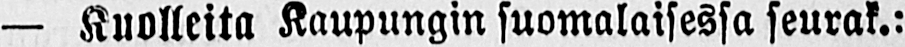— Kuolleita Kaupungin suomalaisessa seurak.:
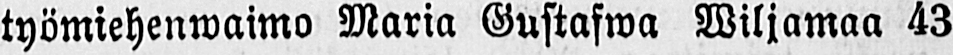työmiehenwaimo Maria Gustafwa Wiljamaa 43
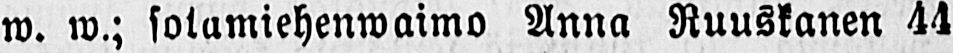w. w.; sotumiehenwaimo Anna Ruuskanen 44
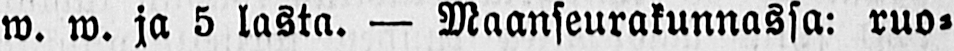w. w. ja 5 lasta. — Maanseurakunnassa: ruo-
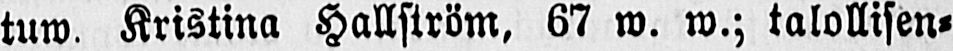tuw. Kristina Hallström, 67 w. w.; talollisen-
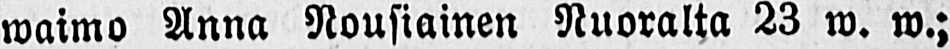waimo Anna Nousiainen Nuoralta 23 w. w.;
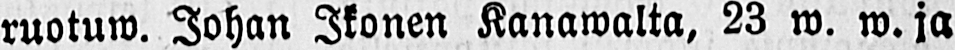ruotuw. Johan Ikonen Kanawalta, 23 w. w. ja
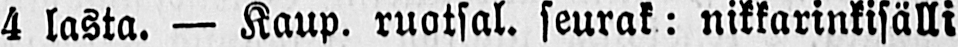4 lasta. — Kaup. ruotsal. seurak : nikkarinkisälli
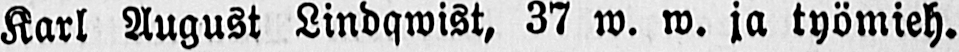Karl August Lindqwist, 37 w. w. ja työmieh.
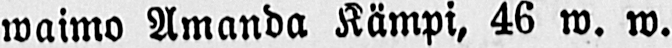waimo Amanda Kämpi, 46 w. w.
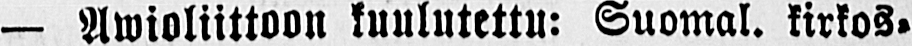— Awioliittoon kuulutettu: Suomal. kirkos-
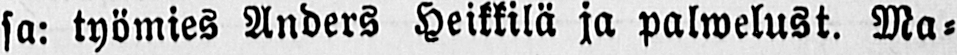sa: työmies Anders Heikkilä ja palwelust. Ma-
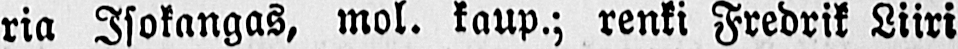ria Isokangas, mol. kaup.; renki Fredrik Liiri
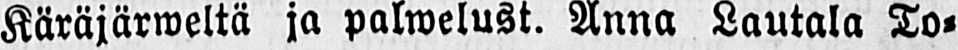Käräjärweltä ja palwelust. Anna Lautala To-
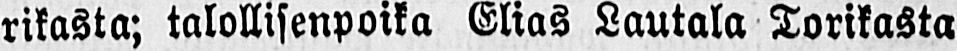rikasta; talollisenpoika Elias Lautala Torikasta
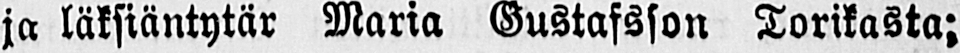ja läksiäntytär Maria Gustafsson Torikasta;
